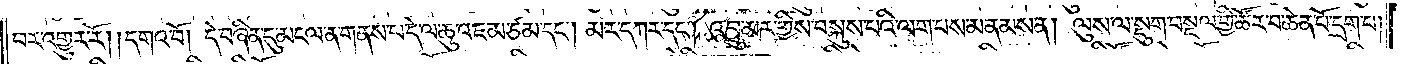བར་འགྱུར་རོ། །དགའ་བོ། དེ་བཞིན་དུ་མངལ་ན་གནས་པ་དེ་ལ་ཆུ་འཇམ་ཙམ་དང༌། མར་དཀར་དང༌། འབྲུ་མར་གྱིས་བསྐུས་པའི་ལག་པས་མནམས་ན། ལུས་ལ་སྡུག་བསྔལ་གྱི་ཚོར་བ་ཆེན་པོ་དྲག་པ།
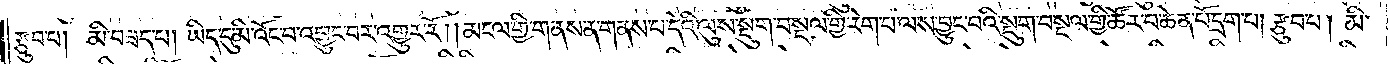རྩུབ་པ། མི་བཟད་པ། ཡིད་དུ་མི་འོང་བ་འབྱུང་བར་འགྱུར་རོ། །མངལ་གྱི་གནས་ན་གནས་པ་དེའི་ལུས་སྡུག་བསྔལ་གྱི་རེག་པ་ལས་བྱུང་བའི་སྡུག་བསྔལ་གྱི་ཚོར་བ་ཆེན་པོ་དྲག་པ། རྩུབ་པ། མི་
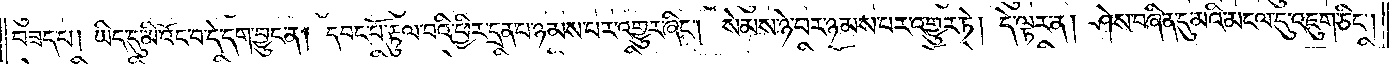བཟད་པ། ཡིད་དུ་མི་འོང་བ་དེ་དག་བྱུང་ན། དབང་པོ་རྟུལ་བའི་ཕྱིར་དྲན་པ་ཉམས་པར་འགྱུར་ཞིང༌། སེམས་ཉེ་བར་ཉམས་པར་འགྱུར་ཏེ། དེ་ལྟར་ན། ཤེས་བཞིན་དུ་མའི་མངལ་དུ་འཇུག་ཅིང༌།
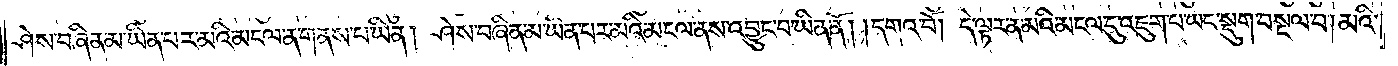ཤེས་བཞིན་མ་ཡིན་པར་མའི་མངལ་ན་གནས་པ་ཡིན། ཤེས་བཞིན་མ་ཡིན་པར་མའི་མངལ་ནས་འབྱུང་བ་ཡིན་ནོ། །དགའ་བོ། དེ་ལྟར་ན་མའི་མངལ་དུ་འཇུག་པ་ཡང་སྡུག་བསྔལ་བ། མའི་
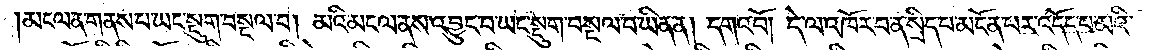མངལ་ན་གནས་པ་ཡང་སྡུག་བསྔལ་བ། མའི་མངལ་ནས་འབྱུང་བ་ཡང་སྡུག་བསྔལ་བ་ཡིན་ན། དགའ་བོ། དེ་ལ་འཁོར་བ་ན་སྲིད་པ་མངོན་པར་འདོད་པ་མའི་
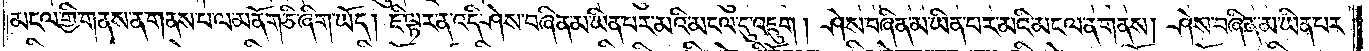མངལ་གྱི་གནས་ན་གནས་པ་ལ་མནོག་ཅི་ཞིག་ཡོད། ཇི་ལྟར་ན་འདི་ཤེས་བཞིན་མ་ཡིན་པར་མའི་མངལ་དུ་འཇུག །ཤེས་བཞིན་མ་ཡིན་པར་མའི་མངལ་ན་གནས། ཤེས་བཞིན་མ་ཡིན་པར་
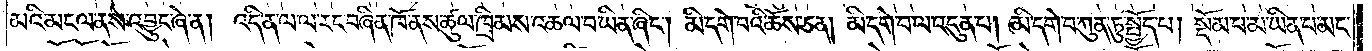མའི་མངལ་ནས་འབྱུང་ཞེ་ན། འདི་ན་ལ་ལ་རང་བཞིན་ཁོ་ནས་ཚུལ་ཁྲིམས་འཆལ་བ་ཡིན་ཞིང༌། མི་དགེ་བའི་ཆོས་ཅན། མི་དགེ་བ་ལ་འདུན་པ། མི་དགེ་བ་ཀུན་ཏུ་སྤྱོད་པ། སྡོམ་པ་མ་ཡིན་པ་མང་
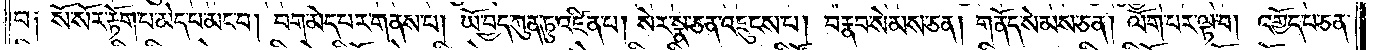བ༑ སོ་སོར་རྟོག་པ་མེད་པ་མང་བ། བག་མེད་པར་གནས་པ། ཡོ་བྱད་ཀུན་ཏུ་འཛིན་པ། སེར་སྣ་ཅན་འཇུངས་པ། བརྣབ་སེམས་ཅན། གནོད་སེམས་ཅན། ལོག་པར་ལྟ་བ། འགྱོད་པ་ཅན་
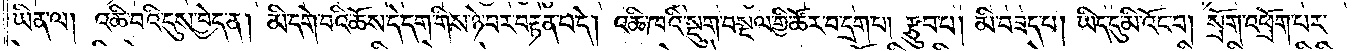ཡིན་ལ། འཆི་བའི་དུས་བྱེད་ན། མི་དགེ་བའི་ཆོས་དེ་དག་གིས་ཉེ་བར་བརྟན་པ་དེ། འཆི་ཁའི་སྡུག་བསྔལ་གྱི་ཚོར་བ་དྲག་པ། རྩུབ་པ། མི་བཟད་པ། ཡིད་དུ་མི་འོང་བ། སྲོག་འཕྲོག་པར་
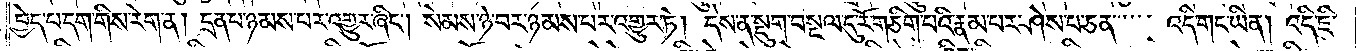བྱེད་པ་དག་གིས་རེག་ན། དྲན་པ་ཉམས་པར་འགྱུར་ཞིང༌། སེམས་ཉེ་བར་ཉམས་པར་འགྱུར་ཏེ། དེས་ན་སྡུག་བསྔལ་དུ་རོ་གཅིག་པའི་རྣམ་པར་ཤེས་པ་ཅན་འདི་གང་ཡིན། འདི་ཇི་
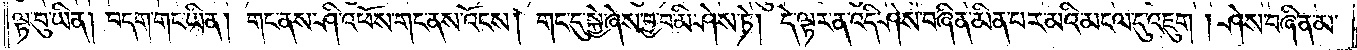ལྟ་བུ་ཡིན། བདག་གང་ཡིན། གང་ནས་ཤི་འཕོས་གང་ནས་འོངས། གང་དུ་སྐྱེ་ཞེས་བྱ་བ་མི་ཤེས་ཏེ། དེ་ལྟར་ན་འདི་ཤེས་བཞིན་མིན་པར་མའི་མངལ་དུ་འཇུག །ཤེས་བཞིན་མ་
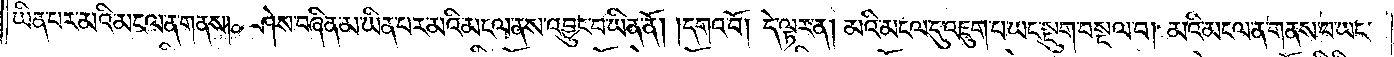ཡིན་པར་མའི་མངལ་ན་གནས། ཤེས་བཞིན་མ་ཡིན་པར་མའི་མངལ་ནས་འབྱུང་བ་ཡིན་ནོ། །དགའ་བོ། དེ་ལྟར་ན། མའི་མངལ་དུ་འཇུག་པ་ཡང་སྡུག་བསྔལ་བ། མའི་མངལ་ན་གནས་པ་ཡང་
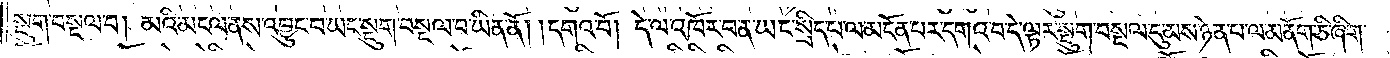སྡུག་བསྔལ་བ། མའི་མངལ་ནས་འབྱུང་བ་ཡང་སྡུག་བསྔལ་བ་ཡིན་ནོ། །དགའ་བོ། དེ་ལ་འཁོར་བ་ན་ཡང་སྲིད་པ་ལ་མངོན་པར་དགའ་བ་དེ་ལྟར་སྡུག་བསྔལ་དུ་མས་ཉེན་པ་ལ་མནོག་ཅི་ཞིག་
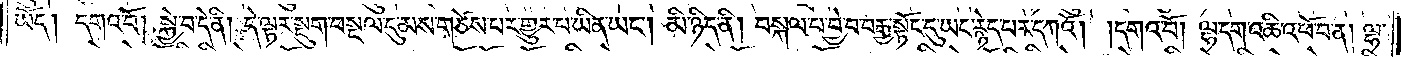ཡོད། དགའ་བོ། སྐྱེ་བ་དེ་ནི། དེ་ལྟར་སྡུག་བསྔལ་དུ་མས་གཙེས་པར་གྱུར་པ་ཡིན་ཡང༌། མི་ཉིད་ནི། བསྐལ་པ་བྱེ་བ་བརྒྱ་སྟོང་དུ་ཡང་རྙེད་པར་དཀའོ། །དགའ་བོ། ལྷ་དག་འཆི་འཕོ་བ་ན། ལྷ་
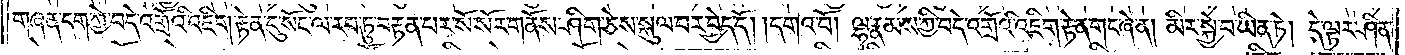གཞན་དག་ཀྱེ་བདེ་འགྲོའི་འཇིག་རྟེན་དུ་སོང་ལ་རབ་ཏུ་བརྟན་པར་སོ་སོར་གནོས་ཤིག་ཅེས་སྐུལ་བར་བྱེད་དོ། །དགའ་བོ། ལྷ་རྣམས་ཀྱི་བདེ་འགྲོའི་འཇིག་རྟེན་གང་ཞེ་ན། མིར་སྐྱེ་བ་ཡིན་ཏེ། དེ་ལྟར་ཤིན་
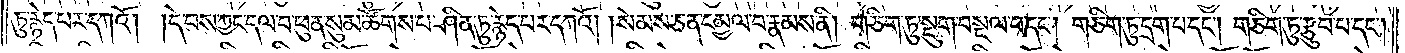ཏུ་རྙེད་པར་དཀའོ། །དེ་བས་ཀྱང་དལ་བ་ཕུན་སུམ་ཚོགས་པ་ཤིན་ཏུ་རྙེད་པར་དཀའོ། །སེམས་ཅན་དམྱལ་བ་རྣམས་ནི། གཅིག་ཏུ་སྡུག་བསྔལ་བ་དང༌། གཅིག་ཏུ་དྲག་པ་དང༌། གཅིག་ཏུ་རྩུབ་པ་དང༌།
